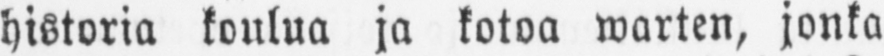historia koulua ja kotoa warten, jonka
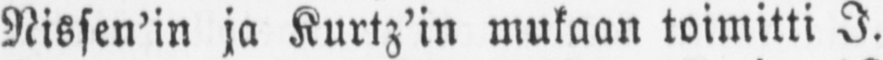Nissen’in ja Kurtz’in mukaan toimitti I.
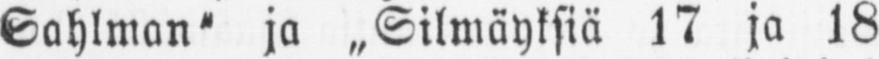Sohlman" ja „Silmäyksiä 17 ja 18
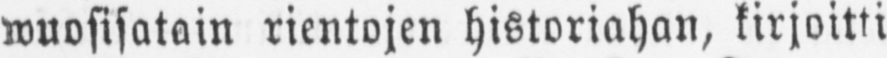wuosisatain rientojen historiahan, kirjoitti
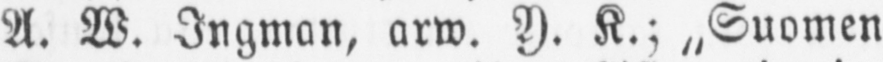A. W. Ingman, arw. Y. K.; „Suomen
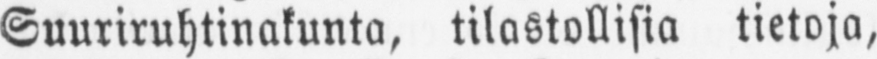Suuriruhtinakunta, tilastollisia tietoja,
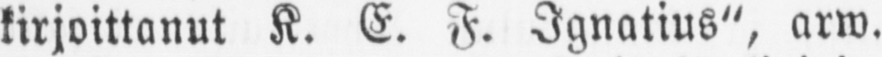kirjoittanut K. E. F. Ignatius", arw.
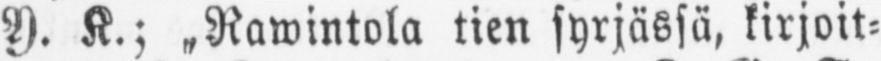A. K.; „Rawintola tien syrjässä, kirjoit-
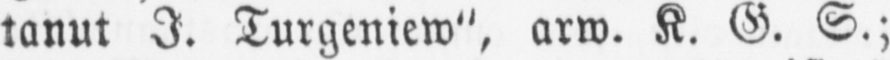tanut I. Turgeniew", arw. K. G. S.;
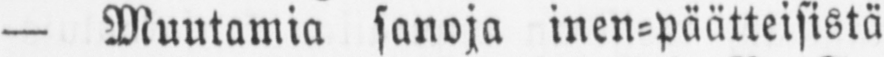— Muutamia sanoja inen-päätteisistä
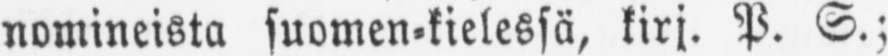nomineista suomen-kielessä, kirj. P. S.;
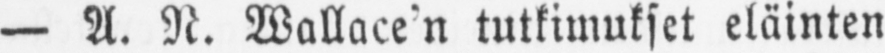— A. N. Wallace’n tutkimukset eläinten
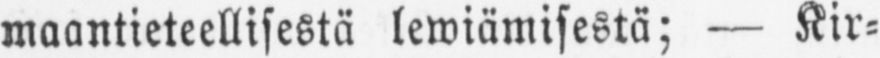maantieteellisestä lewiämisestä; — Kir-
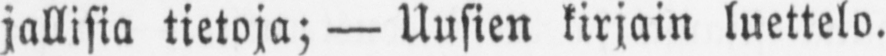jallisia tietoja; — Uusien kirjain luettelo.
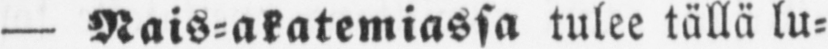— Nais-akatemiassa tulee tällä lu-
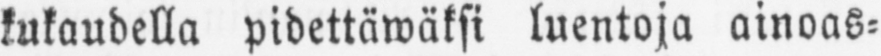kukaudella pidettäwäksi luentoja ainoas-
